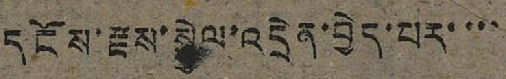དངོས་རྫས་སྐྱེལ་འདྲེན་བྱེད་པར་་་་
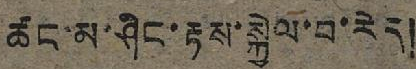ཚང་མ་ཤིང་རྟས་སྐྱེལ་བ་རེད།
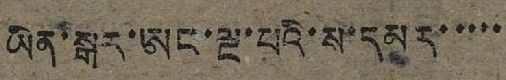ཡིན་སྒར་ཨང་ལྔ་པའི་ས་དམར་་་་་
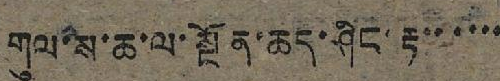གུལ་ས་ཆ་ལ་སྔོན་ཆད་ཤིང་རྟ་་་་་
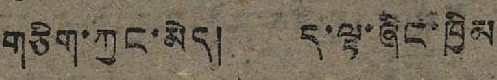གཅིག་ཀྱང་མེད། ད་ལྟ་ཞིང་ཁྱིམ
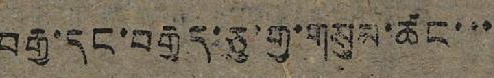བརྒྱ་དང་བརྒྱད་ཅུ་གྱ་གསུམ་ཚང་་་
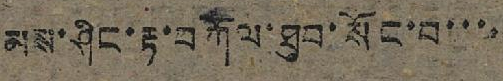མས་ཤིང་རྟ་བཀོལ་ཐུབ་སོང་བ་་་
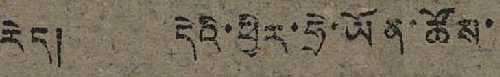རེད། དེའི་ཕྱིར་ཧྲེ་ཡོན་ཚོས་
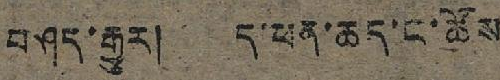བཤད་རྒྱུར། ད་ཕན་ཆད་ང་ཚོས
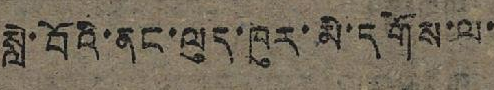སླེ་བོའི་ནང་ལུད་ཁུར་མི་དགོས་ལ་
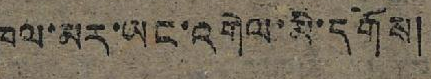ཁལ་མར་ཡང་འགེལ་མི་དགོས།
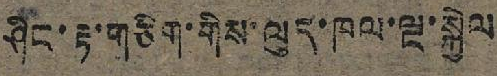ཤིང་རྟ་གཅིག་གིས་ལུད་ཁལ་ལྔ་སྐྱེལ
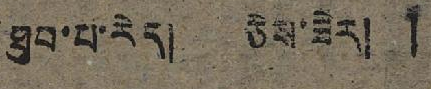ཐུབ་པ་རེད། ཅེས་ཟེར། །
